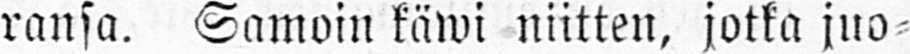ransa. Samoin käwi niitten, jotka juo-
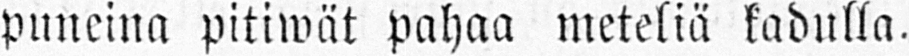puneina pitiwät pahaa meteliä kadulla.
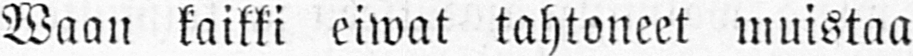Waan kaikki eiwat tahtoneet muistaa
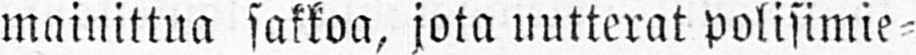mainittua sakkoa, jota uutterat polisimie-
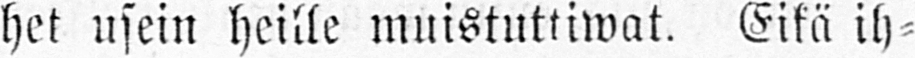het usein heille muistuttiwat. Eikä ih-
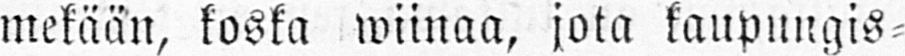mekään, koska wiinaa, jota kaupungis-
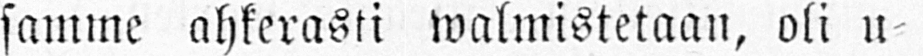samme ahkerasti walmistetaan, oli u-
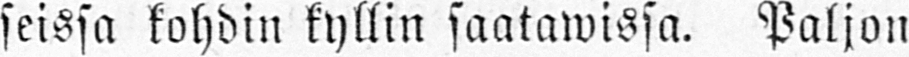seissa kohdin kyllin saatawissa. Paljon
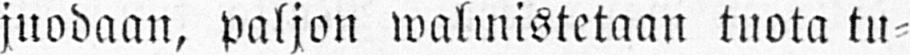juodaan, paljon walmistetaan tuota tu-
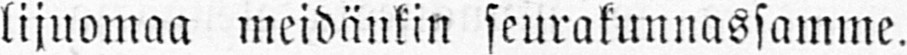lijuomaa meidänkin seurakunnassamme.
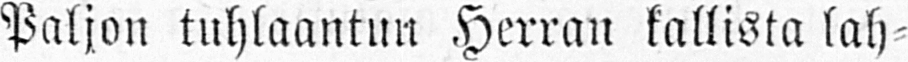Paljon tuhlaantun Herran kallista lah-
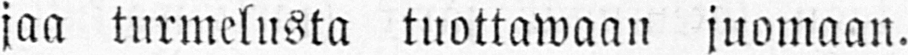jaa turmelusta tuottawaan juomaan.
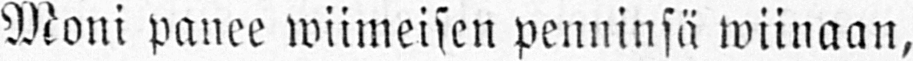Moni panee wiimeisen penninsä wiinaan,
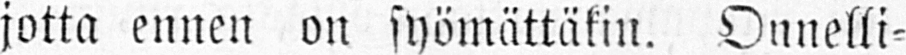jotta ennen on syömättäkin. Onnelli-
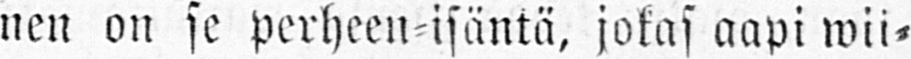nen on se perheen-isäntä, jokas aapi wii-
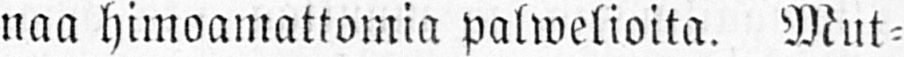naa himoamattomia palwelioita. Mut-
